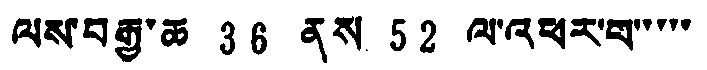ལས་བརྒྱ་ཆ 36 ནས 52 ལ་འཕར་བ་་་་་
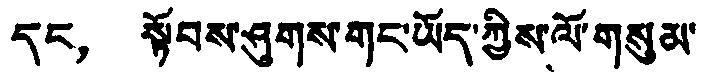དང， སྟོབས་ཤུགས་གང་ཡོད་ཀྱིས་ལོ་གསུམ་
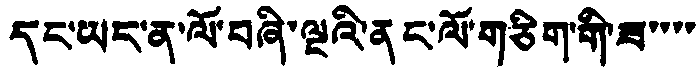དང་ཡང་ན་ལོ་བཞི་ལྔའི་ནང་ལོ་གཅིག་གི་ཟ་་་་
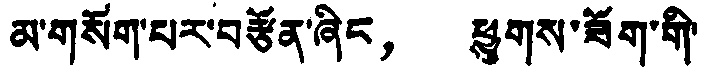མ་གསོག་པར་བརྩོན་ཞིང， ཕྱུགས་ཟོག་གི་
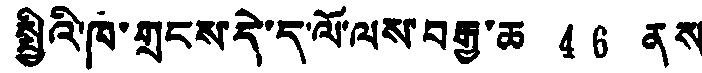སྤྱིའི་ཁ་གྲངས་དེ་ད་ལོ་ལས་བརྒྱ་ཆ 46 ནས།
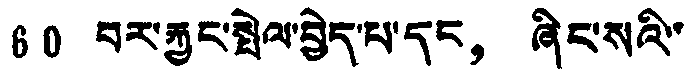60 བར་རྒྱུང་སྤེལ་བྱེད་པ་དང， ཞིང་སའི་
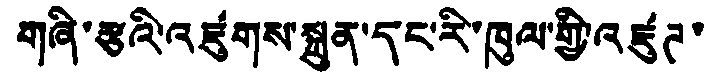གཞི་རྩའི་འཛུགས་སྐྲུན་དང་རི་ཁུལ་གྱི་འཛུཊ་
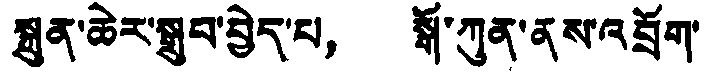སྐྲུན་ཆེར་སྒྲུབ་བྱེད་པ， སྒོ་ཀུན་ནས་འབྲོག་
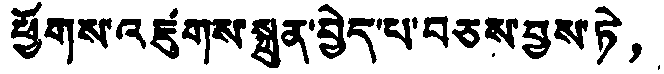ཕྱོགས་འཛུགས་སྐྲུན་བྱེད་པ་བཅས་བྱས་ཏེ，
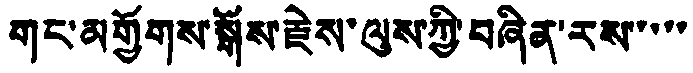གང་མགྱོགས་སྒོས་རྗེས་ལུས་ཀྱི་བཞིན་རས་་་་་
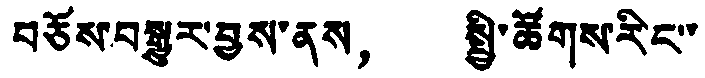བཅོས་བསྒྱུར་བྱས་ནས， སྤྱི་ཚོགས་རིང་་
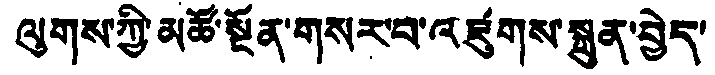ལུགས་ཀྱི་མཚོ་སྔོན་གསར་བ་འཛུགས་སྐྲུན་བྱེད་
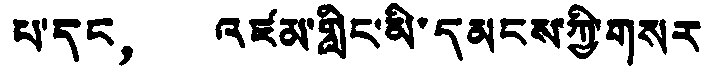པ་དང， འཛམ་གླིང་མི་དམངས་ཀྱི་གསར
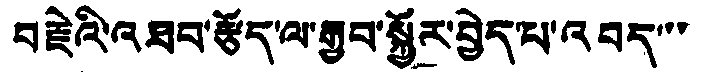བརྗེའི་འཐབ་རྩོད་ལ་རྒྱབ་སྐྱོར་བྱེད་པ་འབད་་་
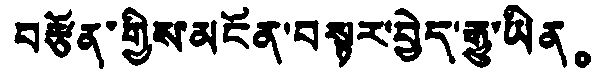བརྩོན་གྱིས་མངོན་བསྟར་བྱེད་རྒྱུ་ཡིན。
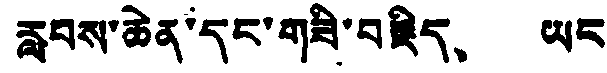རླབས་ཆེན་དང་གཟི་བརྗིད、 ཡང
